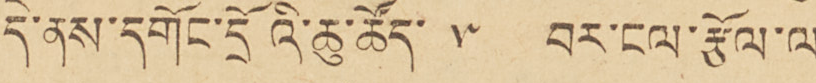དེ་ནས་དགོང་དྲོའི་ཆུ་ཚོད་ ༥ བར་ངལ་ཙོལ་ལ་
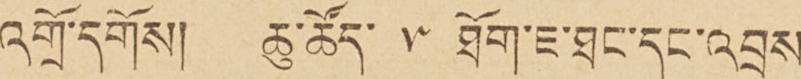འགྲོ་དགོས། ཆུ་ཚོད་ ༥ ཐོག་ཇ་ཐང་དང་འབྲས་
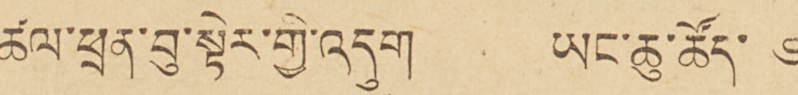ཚལ་ཕྲན་བུ་སྟེར་གྱི་འདུག ཡང་ཆུ་ཚོད་ ༦
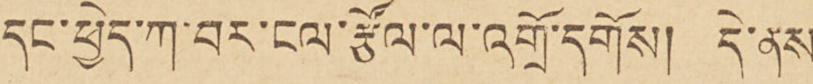དང་ཕྱེད་ཀ་བར་ངལ་ཙོལ་ལ་འགྲོ་དགོས། དེ་ནས་
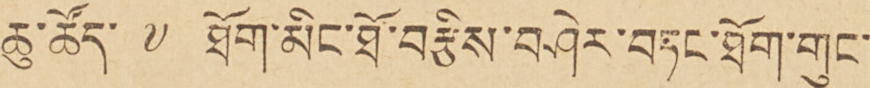ཆུ་ཚོད་ ༧ ཐོག་མིང་ཐོ་བརྩིས་བཤེར་བཏང་ཐོག་གུང་
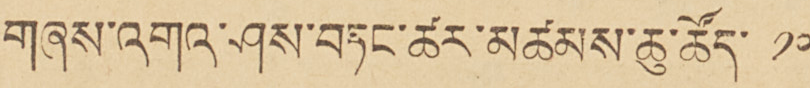གཞས་འགའ་ཤས་བཏང་ཚར་མཚམས་ཆུ་ཚོད་ ༡༠
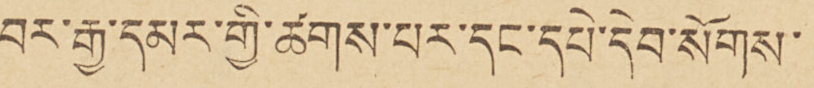བར་རྒྱ་དམར་གྱི་ཚགས་པར་དང་དཔེ་དེབ་སོགས་
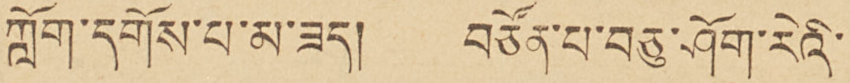ཀློག་དགོས་པ་མ་ཟད། བཙོན་པ་བཅུ་ཤོག་རེའི་
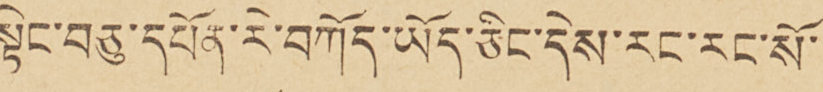སྟེར་བཅུ་དཔོན་རེ་བཀོད་ཡོད་ཅིང་དེས་རང་རང་སོ་
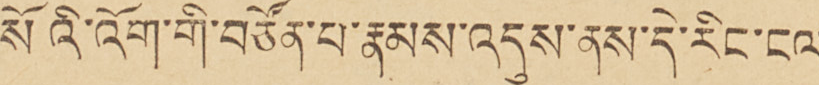སོའི་འོག་གི་བཙོན་པ་རྣམས་འདུས་ནས་དེ་རིང་ངལ་
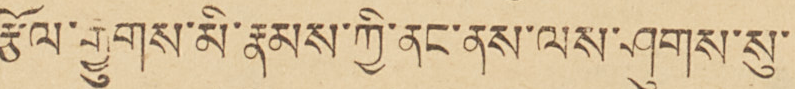རྩོལ་རྒྱུགས་མི་རྣམས་ཀྱི་ནང་ནས་ལས་ཤུགས་སུ་
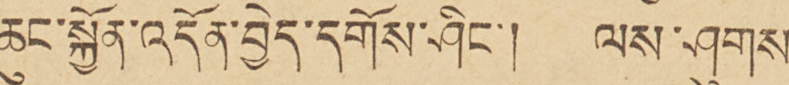ཆུང་སྐྱོན་འདོན་བྱེད་དགོས་ཤིང་། ལས་ཤུགས་
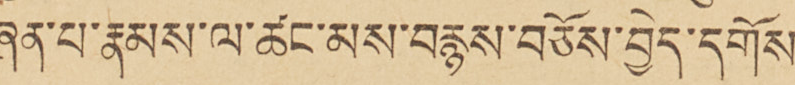ཞན་པ་རྣམས་ལ་ཚང་མས་བརྙན་བཅོས་བྱེད་དགོས་
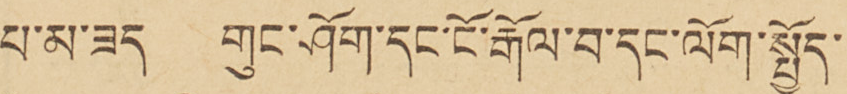པ་མ་ཟད གུང་ཤོག་དང་ངོ་རྒོལ་བ་དང་ལོག་སྤྱོད་
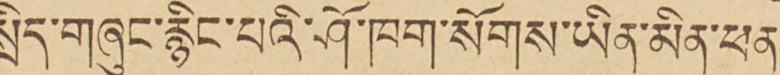སྲིད་གཞུང་རྙིང་པའི་ཤོ་ཁག་སོགས་ཡིན་མིན་ཕན་
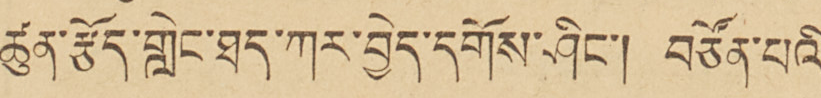ཚུན་རྩོད་གླེང་ཐད་ཀར་བྱེད་དགོས་ཤིང་། བཙོན་པའི་
